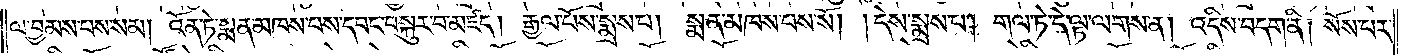ལ་བྱམས་པས་སམ། འོན་ཏེ་སྨན་མཁས་པས་དབང་བསྐུར་བ་མཛད། རྒྱལ་པོས་སྨྲས་པ། སྨན་མཁས་པས་སོ། །དེས་སྨྲས་པ། གལ་ཏེ་དེ་ལྟ་ལགས་ན། འདིས་བདག་ནི། སོས་པར་
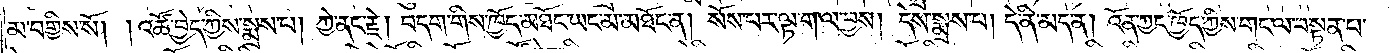མ་བགྱིས་སོ། །འཚོ་བྱེད་ཀྱིས་སྨྲས་པ། ཀྱེ་ནང་རྗེ། བདག་གིས་ཁྱོད་མཐོང་ཡང་མ་མཐོང་ན། སོས་པར་ལྟ་ག་ལ་བྱས། དེས་སྨྲས་པ། དེ་ནི་མད་ན། འོན་ཀྱང་ཁྱོད་ཀྱིས་གང་ལ་བསྟན་པ་
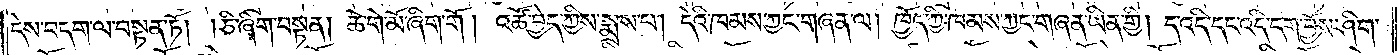དེས་བདག་ལ་བསྟན་ཏོ། །ཅི་ཞིག་བསྟན། ཆེ་གེ་མོ་ཞིག་གོ །འཚོ་བྱེད་ཀྱིས་སྨྲས་པ། དེའི་ཁམས་ཀྱང་གཞན་ལ། ཁྱོད་ཀྱི་ཁམས་ཀྱང་གཞན་ཡིན་གྱི། ད་འདི་དང་འདི་དག་བྱོས་ཤིག་
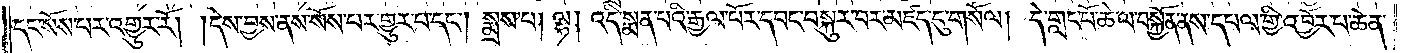དང་སོས་པར་འགྱུར་རོ། །དེས་བྱས་ནས་སོས་པར་གྱུར་པ་དང༌། སྨྲས་པ། ལྷ། འདི་སྨན་པའི་རྒྱལ་པོར་དབང་བསྐུར་བར་མཛད་དུ་གསོལ། དེ་གླང་པོ་ཆེ་ལ་བསྐྱོན་ནས་དཔལ་གྱི་འབྱོར་པ་ཆེན་
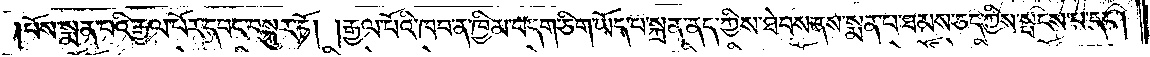པོས་སྨན་པའི་རྒྱལ་པོར་དབང་བསྐུར་ཏོ། །རྒྱལ་པོའི་ཁབ་ན་ཁྱིམ་བདག་ཅིག་ཡོད་པ་སྐྲན་ནད་ཀྱིས་ཐེབས་ནས་སྨན་པ་ཐམས་ཅད་ཀྱིས་སྤངས་པ་དང༌།
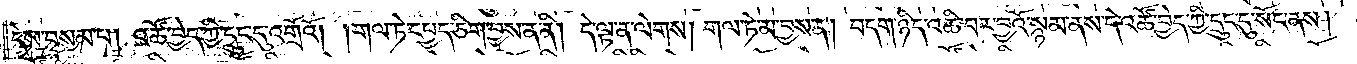དེས་བསམ་པ། འཚོ་བྱེད་ཀྱི་དྲུང་དུ་འགྲོའོ། །གལ་ཏེ་དཔྱད་ཅིག་བྱས་ན་ནི། དེ་ལྟ་ན་ལེགས། གལ་ཏེ་མ་བྱས་ན། བདག་ཉིད་འཆི་བར་བྱའོ་སྙམ་ནས་དེ་འཚོ་བྱེད་ཀྱི་དྲུང་དུ་སོང་ནས།
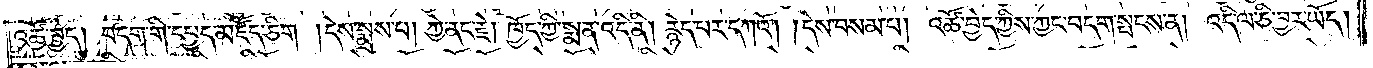འཚོ་བྱེད། བདག་གི་དཔྱད་མཛོད་ཅིག །དེས་སྨྲས་པ། ཀྱེ་ནང་རྗེ། ཁྱོད་ཀྱི་སྨན་འདི་ནི། རྙེད་པར་དཀའོ། །དེས་བསམ་པ། འཚོ་བྱེད་ཀྱིས་ཀྱང་བདག་སྤངས་ན། འདི་ལ་ཅི་བྱར་ཡོད།
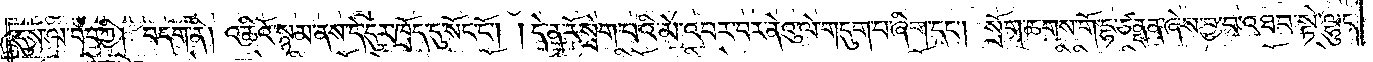དུས་ལ་བབ་ཀྱི། བདག་ནི། འཆིའོ་སྙམ་ནས་དེ་དུར་ཁྲོད་དུ་སོང་ངོ༌། །དེ་ན་རོ་སྲེག་པའི་མེ་འབར་བར་ནེའུ་ལེ་གདུག་པ་ཞིག་དང༌། སྲོག་ཆགས་གོ་དྷ་ཙནྡན་ཞེས་བྱ་བ་འཐབ་སྟེ་ལྷུང་
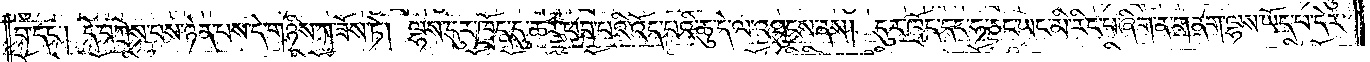བ་དང༌། དེ་བཀྲེས་པས་ཉེན་པས་དེ་གཉིས་ཀ་ཟོས་ཏེ། ལྷས་དུར་ཁྲོད་དུ་ཆར་ཕབ་པའི་འོད་པའི་ཆུ་དེ་ལ་འཐུངས་ནས། དུར་ཁྲོད་དང་ཧ་ཅང་ཡང་མི་རིང་བ་ཞིག་ན་གནག་ལྷས་ཡོད་པ་དེར་
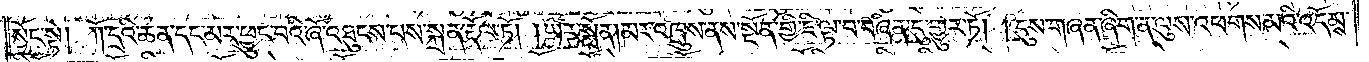སོང་སྟེ། ཀོ་དྲའི་ཆན་དང་མར་ཕྱུང་བའི་ཞོ་འཐུངས་པས་སྐྲན་རྡོལ་ཏོ། །ཡར་སློན། མར་འཁྲུས་ནས་སྔོན་གྱི་ཇི་ལྟ་བ་བཞིན་དུ་གྱུར་ཏོ། །དུས་གཞན་ཞིག་ན་ལུས་འཕགས་མའི་འདོམས་
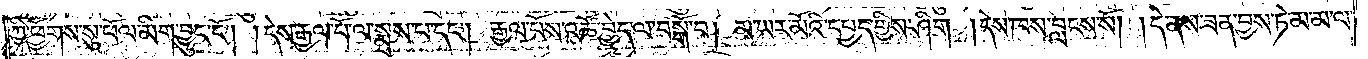ཀྱི་ཕྱོགས་སུ་ཕོལ་མིག་བྱུང་ངོ༌། །དེས་རྒྱལ་པོ་ལ་སྨྲས་པ་དང༌། རྒྱལ་པོས་འཚོ་བྱེད་ལ་བསྒོ་བ། མ་ཡར་མོའི་དཔྱད་གྱིས་ཤིག །དེས་ཁས་བླངས་སོ། །དེ་ནས་ཟན་བྱས་ཏེ་མ་མ་ལ་
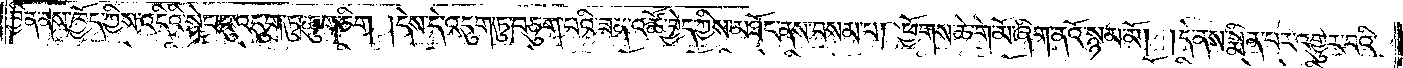བྱིན་ནས་ཁྱོད་ཀྱིས་འདིའི་སྟེང་དུ་འདུག་ཏུ་ཆུག་ཅིག །དེས་དེ་འདུག་ཏུ་བཅུག་པའི་ཟན་འཚོ་བྱེད་ཀྱིས་མཐོང་ནས་བསམ་པ། ཕྱོགས་ཆེ་གེ་མོ་ཞིག་ནའ་སྙམ་མོ། །དེ་ནས་སྨིན་པར་འགྱུར་བའི་
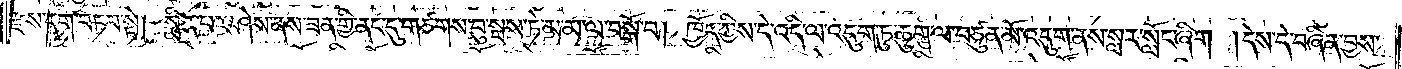རྫས་དག་བཏབ་སྟེ། སྨིན་པར་ཤེས་ནས་ཟན་གྱི་ནང་དུ་གཙགས་བུ་སྦས་ཏེ་མ་མ་ལ་བསྒོ་བ། ཁྱོད་ཀྱིས་དེ་འདི་ལ་འདུག་ཏུ་ཆུག་ལ་བཙུན་མོ་འདུག་ནས་སླར་སློང་ཞིག །དེས་དེ་བཞིན་བྱས་
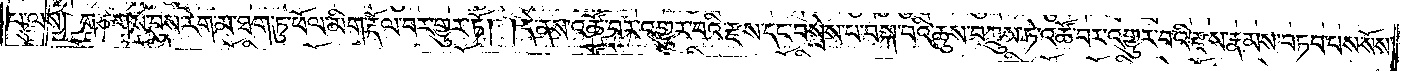པ་ལས། གཙགས་བུས་རེག་མ་ཐག་ཏུ་ཕོལ་མིག་རྡོལ་བར་གྱུར་ཏོ། །དེ་ནས་འཚོ་བར་འགྱུར་བའི་རྫས་དང་བསྲེས་པ་བསྐ་བའི་ཆུས་བཀྲུས་ཏེ་འཚོ་བར་འགྱུར་བའི་རྫས་རྣམས་བཏབ་པས་སོས་
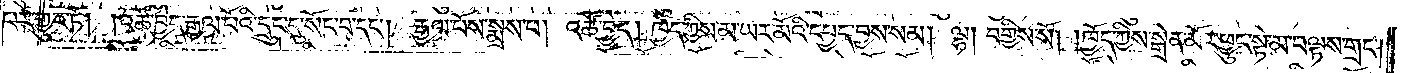པར་གྱུར་ཏོ། །འཚོ་བྱེད་རྒྱལ་པོའི་དྲུང་དུ་སོང་བ་དང༌། རྒྱལ་པོས་སྨྲས་པ། འཚོ་བྱེད། ཁྱེད་ཀྱིས་མ་ཡར་མོའི་དཔྱད་བྱས་སམ། ལྷ། བགྱིས་སོ། །ཁྱོད་ཀྱིས་སྒྲེན་མོར་ཕྱུང་སྟེ་མ་བལྟས་གྲང༌།
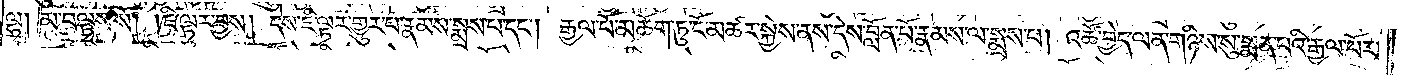ལྷ། མ་བལྟས་སོ། །ཇི་ལྟར་བྱས། དེས་ཇི་ལྟར་གྱུར་པ་རྣམས་སྨྲས་པ་དང༌། རྒྱལ་པོ་མཆོག་ཏུ་ངོ་མཚར་སྐྱེས་ནས་དེས་བློན་པོ་རྣམས་ལ་སྨྲས་པ། འཚོ་བྱེད་ལན་གཉིས་སུ་སྨན་པའི་རྒྱལ་པོར་
